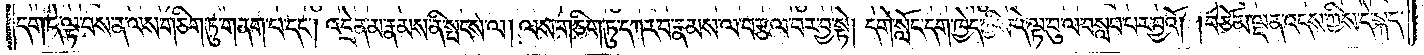དག་དེ་ལྟ་བས་ན་ལས་གཅིག་ཏུ་གནག་པ་དང༌། འདྲེན་མ་རྣམས་ནི་སྤངས་ལ། ལས་གཅིག་ཏུ་དཀར་བ་རྣམས་ལ་བརྩལ་བར་བྱ་སྟེ། དགེ་སློང་དག་ཁྱེད་ཀྱིས་དེ་ལྟ་བུ་ལ་བསླབ་པར་བྱའོ། །བཅོམ་ལྡན་འདས་ཀྱིས་དེ་སྐད་
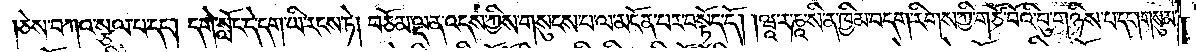།ཅེས་བཀའ་སྩལ་པ་དང༌། དགེ་སློང་དེ་དག་ཡི་རངས་ཏེ། བཅོམ་ལྡན་འདས་ཀྱིས་གསུངས་པ་ལ་མངོན་པར་བསྟོད་དོ། །ཝཱ་ར་ཎཱ་སི་ན་ཁྱིམ་བདག་རིགས་ཀྱི་གཙོ་བོའི་བུ་གཉིས་པ་དང༌། གསུམ་
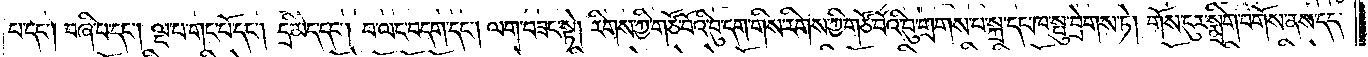པ་དང༌། བཞི་པ་དང༌། ལྔ་པ་གང་པོ་དང༌། དྲི་མེད་དང༌། བ་ལང་བདག་དང༌། ལག་བཟང་སྟེ། རིགས་ཀྱི་གཙོ་བོའི་བུ་དག་གིས་རིགས་ཀྱི་གཙོ་བོའི་བུ་གྲགས་པ་སྐྲ་དང་ཁ་སྤུ་བྲེགས་ཏེ། གོས་ངུར་སྨྲིག་བགོས་ནས་དད་
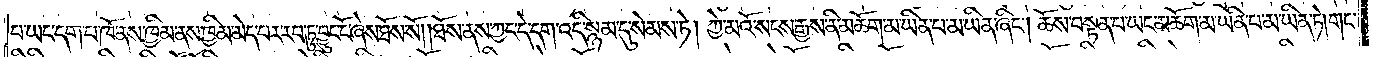པ་ཡང་དག་པ་ཁོ་ནས་ཁྱིམ་ནས་ཁྱིམ་མེད་པར་རབ་ཏུ་བྱུང་ངོ་ཞེས་ཐོས་སོ། །ཐོས་ནས་ཀྱང་དེ་དག་འདི་སྙམ་དུ་སེམས་ཏེ། ཀྱེ་མའོ་སངས་རྒྱས་ནི་མཆོག་མ་ཡིན་པ་མ་ཡིན་ཞིང༌། ཆོས་བསྟན་པ་ཡང་མཆོག་མ་ཡིན་པ་མ་ཡིན་ཏེ། གང་
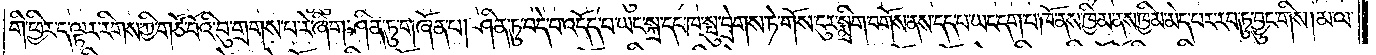གི་ཕྱིར་ད་ལྟར་རིགས་ཀྱི་གཙོ་བོའི་བུ་གྲགས་པ་རེ་ཞིག་ཤིན་ཏུ་གཞོན་པ། ཤིན་ཏུ་བདེ་བ་འདོད་པ་ཡང་སྐྲ་དང་ཁ་སྤུ་བྲེགས་ཏེ་གོས་ངུར་སྨྲིག་བགོས་ནས་དད་པ་ཡང་དག་པ་ཁོ་ནས་ཁྱིམ་ནས་ཁྱིམ་མེད་པར་རབ་ཏུ་བྱུང་གིས། མ་ལ་
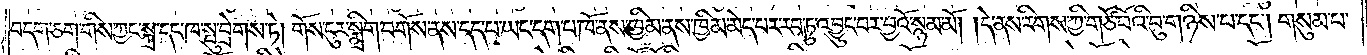བདག་ཅག་གིས་ཀྱང་སྐྲ་དང་ཁ་སྤུ་བྲེགས་ཏེ། གོས་ངུར་སྨྲིག་བགོས་ནས་དད་པ་ཡང་དག་པ་ཁོ་ནས་ཁྱིམ་ནས་ཁྱིམ་མེད་པར་རབ་ཏུ་འབྱུང་བར་བྱའོ་སྙམ་མོ། །དེ་ནས་རིགས་ཀྱི་གཙོ་བོའི་བུ་གཉིས་པ་དང༌། གསུམ་པ་
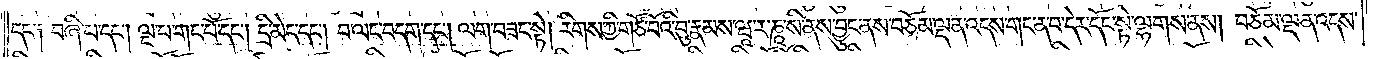དང༌། བཞི་པ་དང༌། ལྔ་པ་གང་པོ་དང༌། དྲི་མེད་དང༌། བ་ལང་བདག་དང༌། ལག་བཟང་སྟེ། རིགས་ཀྱི་གཙོ་བོའི་བུ་རྣམས་ཝཱ་ར་ཎཱ་སི་ནས་བྱུང་ནས་བཅོམ་ལྡན་འདས་གང་ན་བ་དེར་དོང་སྟེ་ལྷགས་ནས། བཅོམ་ལྡན་འདས་
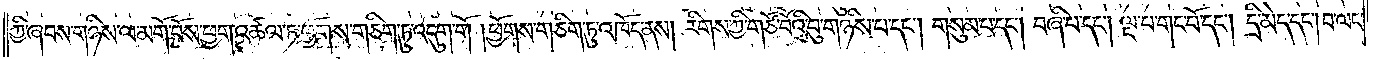ཀྱི་ཞབས་གཉིས་ལ་མགོ་བོས་ཕྱག་འཚལ་ཏེ་ཕྱོགས་གཅིག་ཏུ་འདུག་གོ །ཕྱོགས་གཅིག་ཏུ་འཁོད་ནས། རིགས་ཀྱི་གཙོ་བོའི་བུ་གཉིས་པ་དང༌། གསུམ་པ་དང༌། བཞི་པ་དང༌། ལྔ་པ་གང་པོ་དང༌། དྲི་མེད་དང༌། བ་ལང་
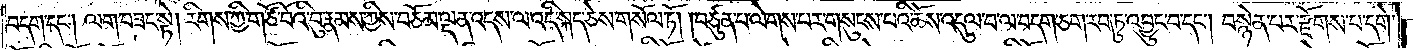བདག་དང༌། ལག་བཟང་སྟེ། རིགས་ཀྱི་གཙོ་བོའི་བུ་རྣམས་ཀྱིས་བཅོམ་ལྡན་འདས་ལ་འདི་སྐད་ཅེས་གསོལ་ཏོ། །བཙུན་པ་ལེགས་པར་གསུངས་པའི་ཆོས་འདུལ་བ་ལ་བདག་ཅག་རབ་ཏུ་འབྱུང་བ་དང༌། བསྙེན་པར་རྫོགས་པ་དགེ་
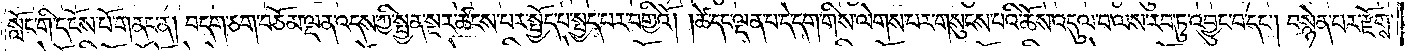སློང་གི་དངོས་པོ་གནང་ན། བདག་ཅག་བཅོམ་ལྡན་འདས་ཀྱི་སྤྱན་སྔར་ཚངས་པར་སྤྱོད་པ་སྤྱད་པར་བགྱིའོ། །ཚེ་དང་ལྡན་པ་དེ་དག་གིས་ལེགས་པར་གསུངས་པའི་ཆོས་འདུལ་བ་ལས་རབ་ཏུ་འབྱུང་བ་དང༌། བསྙེན་པར་རྫོགས་
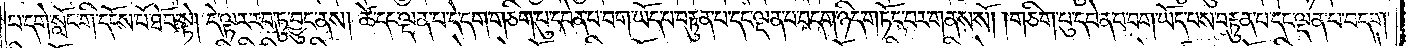པ་དགེ་སློང་གི་དངོས་པོ་ཐོབ་སྟེ། དེ་ལྟར་རབ་ཏུ་བྱུང་ནས། ཚེ་དང་ལྡན་པ་དེ་དག་གཅིག་པུ་དབེན་པ་བག་ཡོད་པ་བརྟུན་པ་དང་ལྡན་པ་བདག་ཉིད་གཏོང་བར་གནས་སོ། །གཅིག་པུ་དབེན་པ་བག་ཡོད་པས་བརྟུན་པ་དང་ལྡན་པ་བདག་
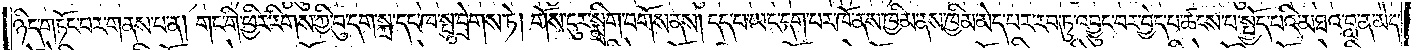ཉིད་གཏོང་བར་གནས་པ་ན། གང་གི་ཕྱིར་རིགས་ཀྱི་བུ་དག་སྐྲ་དང་ཁ་སྤུ་བྲེགས་ཏེ། གོས་ངུར་སྨྲིག་བགོས་ནས། དད་པ་ཡང་དག་པར་ཁོ་ནས་ཁྱིམ་ནས་ཁྱིམ་མེད་པར་རབ་ཏུ་འབྱུང་བར་བྱེད་པ་ཚངས་པ་སྤྱོད་པའི་མཐའ་བླ་ན་མེད་
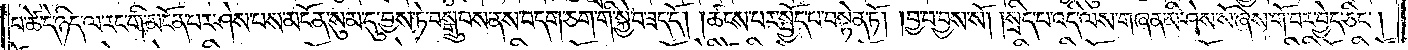པ་ཚེ་དེ་ཉིད་ལ་རང་གི་མངོན་པར་ཤེས་པས་མངོན་སུམ་དུ་བྱས་ཏེ་བསྒྲུབས་ནས་བདག་ཅག་གི་སྐྱེ་བ་ཟད་དོ། །ཚངས་པར་སྤྱོད་པ་བསྟེན་ཏོ། །བྱ་བ་བྱས་སོ། །སྲིད་པ་འདི་ལས་གཞན་མི་ཤེས་སོ་ཞེས་གོ་བར་བྱེད་ཅིང༌།
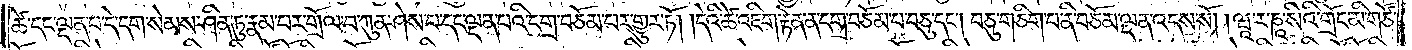ཚེ་དང་ལྡན་པ་དེ་དག་སེམས་ཤིན་ཏུ་རྣམ་པར་གྲོལ་བ་ཀུན་ཤེས་པ་དང་ལྡན་པའི་དགྲ་བཅོམ་པར་གྱུར་ཏོ། །དེའི་ཚེ་འཇིག་རྟེན་ན་དགྲ་བཅོམ་པ་བཅུ་དང༌། བཅུ་གཅིག་པ་ནི་བཅོམ་ལྡན་འདས་སོ། །ཝཱ་ར་ཎཱ་སིའི་གྲོང་མི་གཙོ་
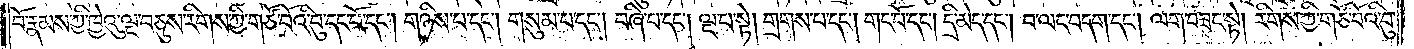བོ་རྣམས་ཀྱི་ཁྱེའུ་ལྔ་བཅུས་རིགས་ཀྱི་གཙོ་བོའི་བུ་དང་པོ་དང༌། གཉིས་པ་དང༌། གསུམ་པ་དང༌། བཞི་པ་དང༌། ལྔ་པ་སྟེ། གྲགས་པ་དང༌། གང་པོ་དང༌། དྲི་མེད་དང༌། བ་ལང་བདག་དང༌། ལག་བཟང་སྟེ། རིགས་ཀྱི་གཙོ་བོའི་བུ་
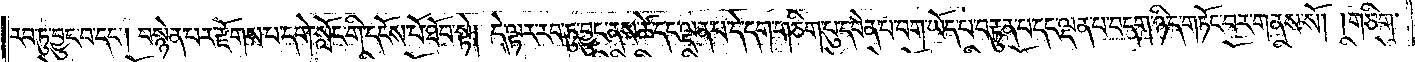རབ་ཏུ་བྱུང་བ་དང༌། སྙེན་པར་རྫོགས་པ་དགེ་སློང་གི་དངོས་པོ་ཐོབ་སྟེ། དེ་ལྟར་རབ་ཏུ་བྱུང་ནས་ཚེ་དང་ལྡན་པ་དེ་དག་གཅིག་པུ་དབེན་པ་བག་ཡོད་པ་བརྟུན་པ་དང་ལྡན་པ་བདག་ཉིད་གཏོང་བར་གནས་སོ། །གཅིག་
